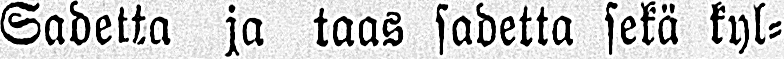Sadetta ja taas sadetta sekä kyl-
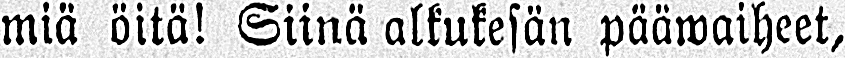miä öitä! Siinä alkukesän pääwaiheet,
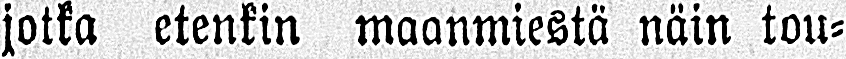jotka etenkin maanmiestä näin tou-
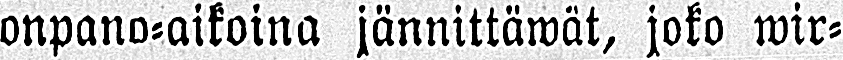onpano-aikoina jännittäwät, joko wir-
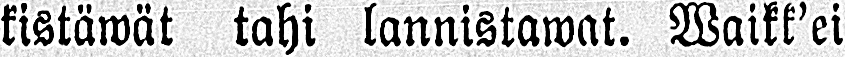kistäwät tahi lannistawat. Waikk’ei
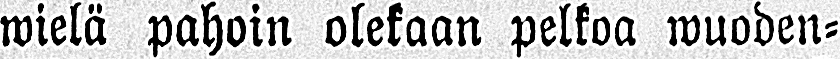wielä pahoin olekaan pelkoa wuoden-
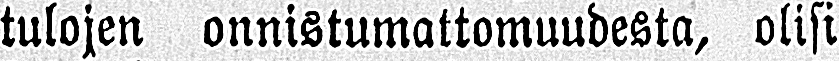tulojen onnistumattomuudesta, olisi
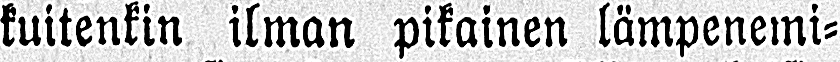kuitenkin ilman pikainen lämpenemi-
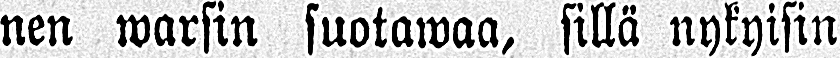nen warsin suotawaa, sillä nykyisin
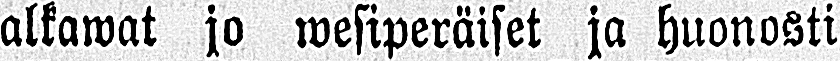alkawat jo wesiperäiset ja huonosti
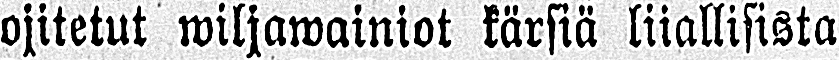ojitetut wiljawainiot kärsiä liiallisista
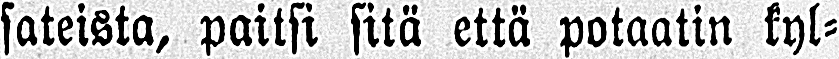sateista, paitsi sitä että potaatin kyl-
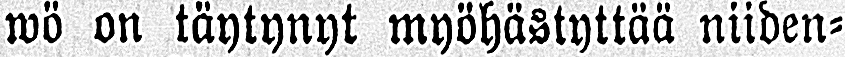wö on täytynyt myöhästyttää niiden-
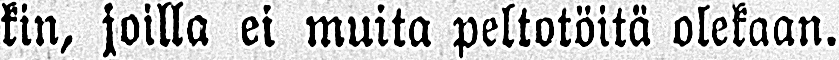kin, joilla ei muita peltotöitä olekaan.
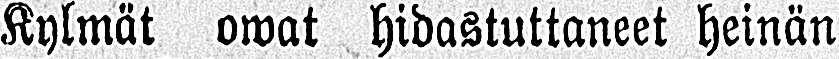Kylmät owat hidastuttaneet heinän
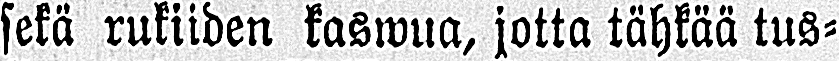sekä rukiiden kaswua, jotta tähkää tus-
